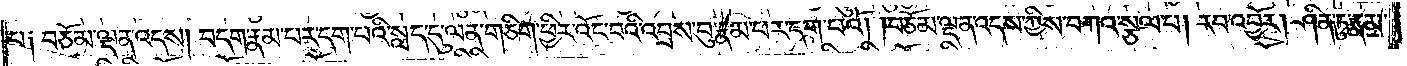པ༑ བཅོམ་ལྡན་འདས། བདག་རྣམ་པར་དག་པའི་སླད་དུ་ལན་གཅིག་ཕྱིར་འོང་བའི་འབྲས་བུ་རྣམ་པར་དག་པའོ། །བཅོམ་ལྡན་འདས་ཀྱིས་བཀའ་སྩལ་པ། རབ་འབྱོར། ཤིན་ཏུ་རྣམ་
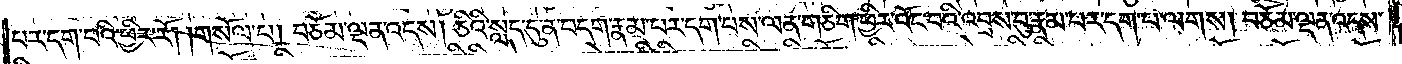པར་དག་པའི་ཕྱིར་རོ། །གསོལ་པ། བཅོམ་ལྡན་འདས། ཅིའི་སླད་དུ་ན་བདག་རྣམ་པར་དག་པས་ལན་གཅིག་ཕྱིར་འོང་བའི་འབྲས་བུ་རྣམ་པར་དག་པ་ལགས། བཅོམ་ལྡན་འདས་
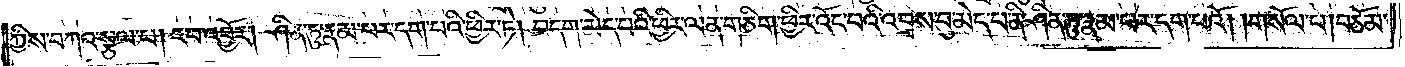ཀྱིས་བཀའ་སྩལ་པ། རབ་འབྱོར། ཤིན་ཏུ་རྣམ་པར་དག་པའི་ཕྱིར་ཏེ། བདག་མེད་པའི་ཕྱིར་ལན་གཅིག་ཕྱིར་འོང་བའི་འབྲས་བུ་མེད་པ་ནི་ཤིན་ཏུ་རྣམ་པར་དག་པའོ། །གསོལ་པ། བཅོམ་
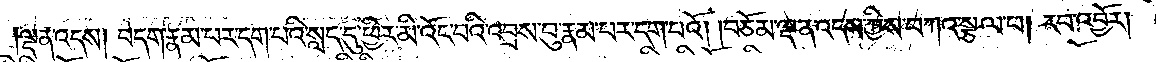ལྡན་འདས། བདག་རྣམ་པར་དག་པའི་སླད་དུ་ཕྱིར་མི་འོང་བའི་འབྲས་བུ་རྣམ་པར་དག་པའོ། །བཅོམ་ལྡན་འདས་ཀྱིས་བཀའ་སྩལ་པ། རབ་འབྱོར།
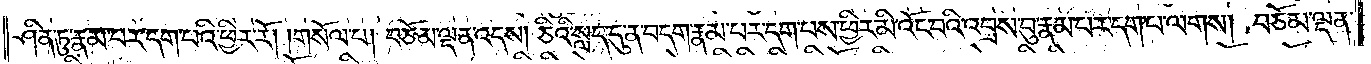ཤིན་ཏུ་རྣམ་པར་དག་པའི་ཕྱིར་རོ། །གསོལ་པ། བཅོམ་ལྡན་འདས། ཅིའི་སླད་དུ་ན་བདག་རྣམ་པར་དག་པས་ཕྱིར་མི་འོང་བའི་འབྲས་བུ་རྣམ་པར་དག་པ་ལགས། བཅོམ་ལྡན་
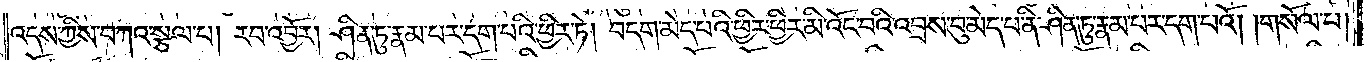འདས་ཀྱིས་བཀའ་སྩལ་པ། རབ་འབྱོར། ཤིན་ཏུ་རྣམ་པར་དག་པའི་ཕྱིར་ཏེ། བདག་མེད་པའི་ཕྱིར་ཕྱིར་མི་འོང་བའི་འབྲས་བུ་མེད་པ་ནི་ཤིན་ཏུ་རྣམ་པར་དག་པའོ། །གསོལ་པ།
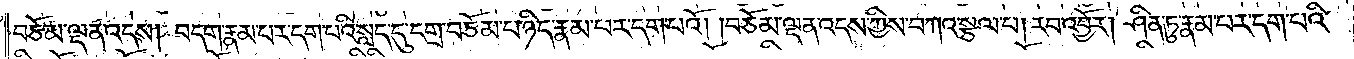བཅོམ་ལྡན་འདས། བདག་རྣམ་པར་དག་པའི་སླད་དུ་དགྲ་བཅོམ་པ་ཉིད་རྣམ་པར་དག་པའོ། །བཅོམ་ལྡན་འདས་ཀྱིས་བཀའ་སྩལ་པ། རབ་འབྱོར། ཤིན་ཏུ་རྣམ་པར་དག་པའི་
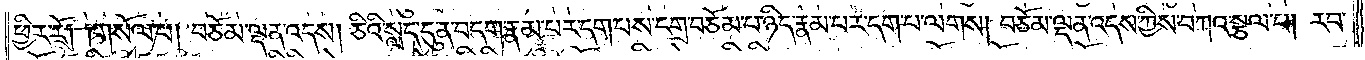ཕྱིར་རོ༑ ༑གསོལ་པ། བཅོམ་ལྡན་འདས། ཅིའི་སླད་དུ་ན་བདག་རྣམ་པར་དག་པས་དགྲ་བཅོམ་པ་ཉིད་རྣམ་པར་དག་པ་ལགས། བཅོམ་ལྡན་འདས་ཀྱིས་བཀའ་སྩལ་པ། རབ་
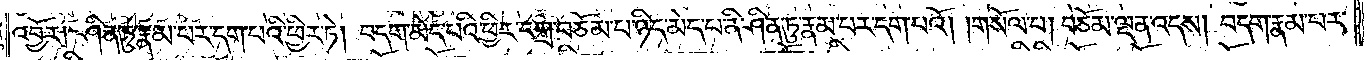འབྱོར། ཤིན་ཏུ་རྣམ་པར་དག་པའི་ཕྱིར་ཏེ། བདག་མེད་པའི་ཕྱིར་དགྲ་བཅོམ་པ་ཉིད་མེད་པ་ནི་ཤིན་ཏུ་རྣམ་པར་དག་པའོ། །གསོལ་པ། བཅོམ་ལྡན་འདས། བདག་རྣམ་པར་
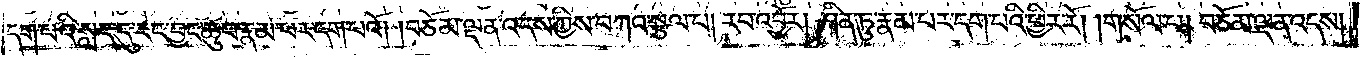དག་པའི་སླད་དུ་རང་བྱང་ཆུབ་རྣམ་པར་དག་པའོ། །བཅོམ་ལྡན་འདས་ཀྱིས་བཀའ་སྩལ་པ། རབ་འབྱོར། ཤིན་ཏུ་རྣམ་པར་དག་པའི་ཕྱིར་རོ། །གསོལ་པ། བཅོམ་ལྡན་འདས།
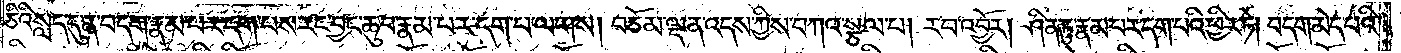ཅིའི་སླད་དུ་ན་བདག་རྣམ་པར་དག་པས་རང་བྱང་ཆུབ་རྣམ་པར་དག་པ་ལགས། བཅོམ་ལྡན་འདས་ཀྱིས་བཀའ་སྩལ་པ། རབ་འབྱོར། ཤིན་ཏུ་རྣམ་པར་དག་པའི་ཕྱིར་ཏེ། བདག་མེད་པའི་
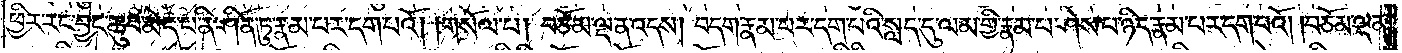ཕྱིར་རང་བྱང་ཆུབ་མེད་པ་ནི་ཤིན་ཏུ་རྣམ་པར་དག་པའོ། །གསོལ་པ། བཅོམ་ལྡན་འདས། བདག་རྣམ་པར་དག་པའི་སླད་དུ་ལམ་གྱི་རྣམ་པ་ཤེས་པ་ཉིད་རྣམ་པར་དག་པའོ། །བཅོམ་ལྡན་
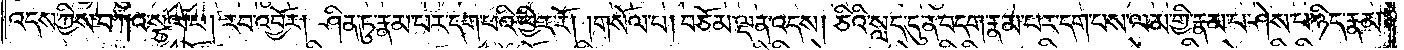འདས་ཀྱིས་བཀའ་སྩལ་པ། རབ་འབྱོར། ཤིན་ཏུ་རྣམ་པར་དག་པའི་ཕྱིར་རོ། །གསོལ་པ། བཅོམ་ལྡན་འདས། ཅིའི་སླད་དུ་ན་བདག་རྣམ་པར་དག་པས་ལམ་གྱི་རྣམ་པར་ཤེས་པ་ཉིད་རྣམ་
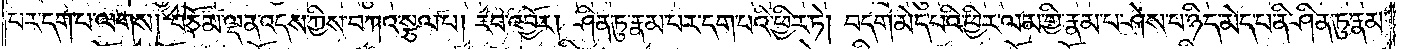པར་དག་པ་ལགས། བཅོམ་ལྡན་འདས་ཀྱིས་བཀའ་སྩལ་པ། རབ་འབྱོར། ཤིན་ཏུ་རྣམ་པར་དག་པའི་ཕྱིར་ཏེ། བདག་མེད་པའི་ཕྱིར་ལམ་གྱི་རྣམ་པ་ཤེས་པ་ཉིད་མེད་པ་ནི་ཤིན་ཏུ་རྣམ་
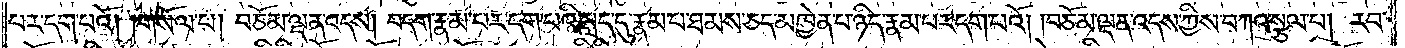པར་དག་པའོ། །གསོལ་པ། བཅོམ་ལྡན་འདས། བདག་རྣམ་པར་དག་པའི་སླད་དུ་རྣམ་པ་ཐམས་ཅད་མཁྱེན་པ་ཉིད་རྣམ་པར་དག་པའོ། །བཅོམ་ལྡན་འདས་ཀྱིས་བཀའ་སྩལ་པ། རབ་
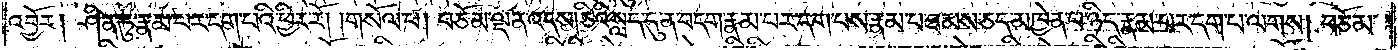འབྱོར༑ ཤིན་ཏུ་རྣམ་པར་དག་པའི་ཕྱིར་རོ། །གསོལ་པ། བཅོམ་ལྡན་འདས། ཅིའི་སླད་དུ་ན་བདག་རྣམ་པར་དག་པས་རྣམ་པ་ཐམས་ཅད་མཁྱེན་པ་ཉིད་རྣམ་པར་དག་པ་ལགས། བཅོམ་
